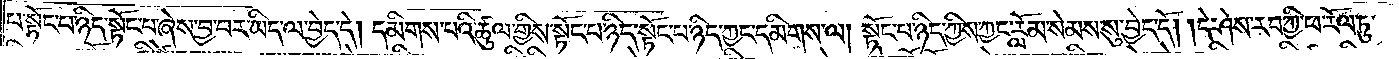པ་སྟོང་པ་ཉིད་སྟོང་པ་ཞེས་བྱ་བར་ཡིད་ལ་བྱེད་དེ། དམིགས་པའི་ཚུལ་གྱིས་སྟོང་པ་ཉིད་སྟོང་པ་ཉིད་ཀྱང་དམིགས་ལ། སྟོང་པ་ཉིད་ཀྱིས་ཀྱང་རློམ་སེམས་སུ་བྱེད་དོ། །དེ་ཤེས་རབ་ཀྱི་ཕ་རོལ་ཏུ་
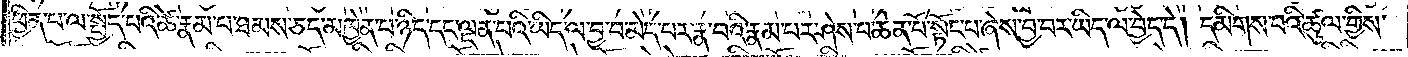ཕྱིན་པ་ལ་སྤྱོད་པའི་ཚེ་རྣམ་པ་ཐམས་ཅད་མཁྱེན་པ་ཉིད་དང་ལྡན་པའི་ཡིད་ལ་བྱ་བ་མེད་པར་རྣ་བའི་རྣམ་པར་ཤེས་པ་ཆེན་པོ་སྟོང་པ་ཞེས་བྱ་བར་ཡིད་ལ་བྱེད་དེ། དམིགས་པའི་ཚུལ་གྱིས་
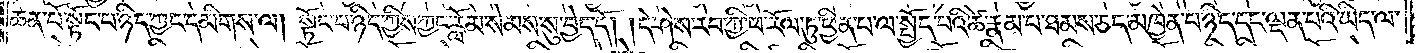ཆེན་པོ་སྟོང་པ་ཉིད་ཀྱང་དམིགས་ལ། སྟོང་པ་ཉིད་ཀྱིས་ཀྱང་རློམ་སེམས་སུ་བྱེད་དོ། །དེ་ཤེས་རབ་ཀྱི་ཕ་རོལ་ཏུ་ཕྱིན་པ་ལ་སྤྱོད་པའི་ཚེ་རྣམ་པ་ཐམས་ཅད་མཁྱེན་པ་ཉིད་དང་ལྡན་པའི་ཡིད་ལ་
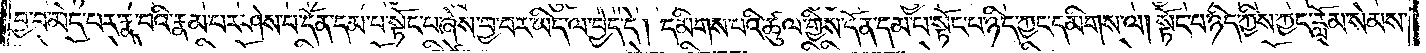བྱ་བ་མེད་པར་རྣ་བའི་རྣམ་པར་ཤེས་པ་དོན་དམ་པ་སྟོང་པ་ཞེས་བྱ་བར་ཡིད་ལ་བྱེད་དེ། དམིགས་པའི་ཚུལ་གྱིས་དོན་དམ་པ་སྟོང་པ་ཉིད་ཀྱང་དམིགས་ལ། སྟོང་པ་ཉིད་ཀྱིས་ཀྱང་རློམ་སེམས་
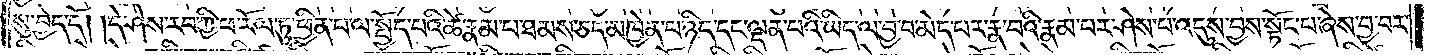སུ་བྱེད་དོ། །དེ་ཤེས་རབ་ཀྱི་ཕ་རོལ་ཏུ་ཕྱིན་པ་ལ་སྤྱོད་པའི་ཚེ་རྣམ་པ་ཐམས་ཅད་མཁྱེན་པ་ཉིད་དང་ལྡན་པའི་ཡིད་ལ་བྱ་བ་མེད་པར་རྣ་བའི་རྣམ་པར་ཤེས་པ་འདུས་བྱས་སྟོང་པ་ཞེས་བྱ་བར་
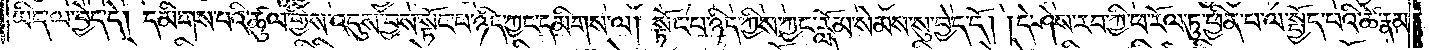ཡིད་ལ་བྱེད་དེ། དམིགས་པའི་ཚུལ་གྱིས་འདུས་བྱས་སྟོང་པ་ཉིད་ཀྱང་དམིགས་ལ། སྟོང་པ་ཉིད་ཀྱིས་ཀྱང་རློམ་སེམས་སུ་བྱེད་དོ། །དེ་ཤེས་རབ་ཀྱི་ཕ་རོལ་ཏུ་ཕྱིན་པ་ལ་སྤྱོད་པའི་ཚེ་རྣམ་
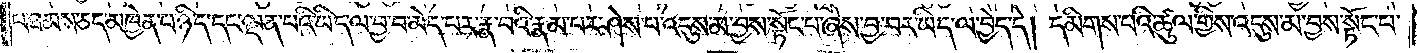པ་ཐམས་ཅད་མཁྱེན་པ་ཉིད་དང་ལྡན་པའི་ཡིད་ལ་བྱ་བ་མེད་པར་རྣ་བའི་རྣམ་པར་ཤེས་པ་འདུས་མ་བྱས་སྟོང་པ་ཞེས་བྱ་བར་ཡིད་ལ་བྱེད་དེ། དམིགས་པའི་ཚུལ་གྱིས་འདུས་མ་བྱས་སྟོང་པ་
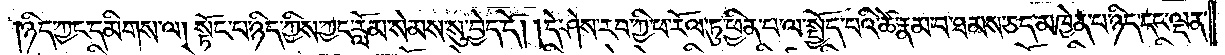ཉིད་ཀྱང་དམིགས་ལ། སྟོང་པ་ཉིད་ཀྱིས་ཀྱང་རློམ་སེམས་སུ་བྱེད་དོ། །དེ་ཤེས་རབ་ཀྱི་ཕ་རོལ་ཏུ་ཕྱིན་པ་ལ་སྤྱོད་པའི་ཚེ་རྣམ་པ་ཐམས་ཅད་མཁྱེན་པ་ཉིད་དང་ལྡན་
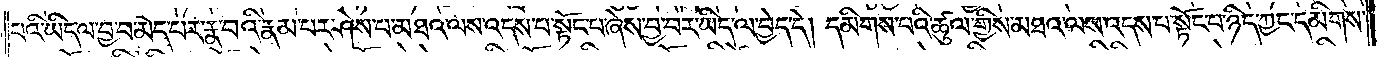པའི་ཡིད་ལ་བྱ་བ་མེད་པར་རྣ་བའི་རྣམ་པར་ཤེས་པ་མཐའ་ལས་འདས་པ་སྟོང་པ་ཞེས་བྱ་བར་ཡིད་ལ་བྱེད་དེ། དམིགས་པའི་ཚུལ་གྱིས་མཐའ་ལས་འདས་པ་སྟོང་པ་ཉིད་ཀྱང་དམིགས་
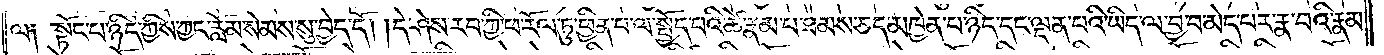ལ༑ སྟོང་པ་ཉིད་ཀྱིས་ཀྱང་རློམ་སེམས་སུ་བྱེད་དོ། །དེ་ཤེས་རབ་ཀྱི་ཕ་རོལ་ཏུ་ཕྱིན་པ་ལ་སྤྱོད་པའི་ཚེ་རྣམ་པ་ཐམས་ཅད་མཁྱེན་པ་ཉིད་དང་ལྡན་པའི་ཡིད་ལ་བྱ་བ་མེད་པར་རྣ་བའི་རྣམ་
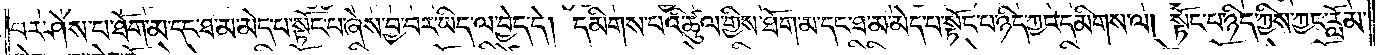པར་ཤེས་པ་ཐོག་མ་དང་ཐ་མ་མེད་པ་སྟོང་པ་ཞེས་བྱ་བར་ཡིད་ལ་བྱེད་དེ། དམིགས་པའི་ཚུལ་གྱིས་ཐོག་མ་དང་ཐ་མ་མེད་པ་སྟོང་པ་ཉིད་ཀྱང་དམིགས་ལ། སྟོང་པ་ཉིད་ཀྱིས་ཀྱང་རློམ་
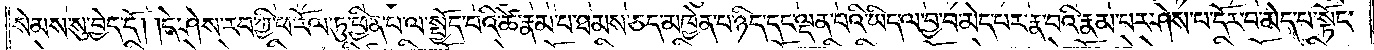སེམས་སུ་བྱེད་དོ། །དེ་ཤེས་རབ་ཀྱི་ཕ་རོལ་ཏུ་ཕྱིན་པ་ལ་སྤྱོད་པའི་ཚེ་རྣམ་པ་ཐམས་ཅད་མཁྱེན་པ་ཉིད་དང་ལྡན་པའི་ཡིད་ལ་བྱ་བ་མེད་པར་རྣ་བའི་རྣམ་པར་ཤེས་པ་དོར་བ་མེད་པ་སྟོང་
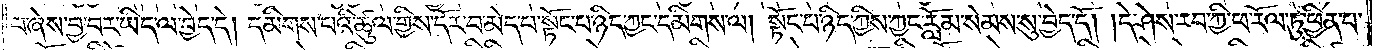པ་ཞེས་བྱ་བར་ཡིད་ལ་བྱེད་དེ། དམིགས་པའི་ཚུལ་གྱིས་དོར་བ་མེད་པ་སྟོང་པ་ཉིད་ཀྱང་དམིགས་ལ། སྟོང་པ་ཉིད་ཀྱིས་ཀྱང་རློམ་སེམས་སུ་བྱེད་དོ། །དེ་ཤེས་རབ་ཀྱི་ཕ་རོལ་ཏུ་ཕྱིན་པ་
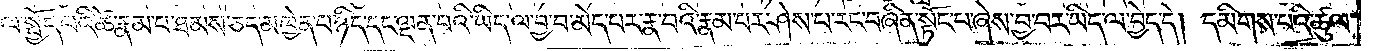ལ་སྤྱོད་པའི་ཚེ་རྣམ་པ་ཐམས་ཅད་མཁྱེན་པ་ཉིད་དང་ལྡན་པའི་ཡིད་ལ་བྱ་བ་མེད་པར་རྣ་བའི་རྣམ་པར་ཤེས་པ་རང་བཞིན་སྟོང་པ་ཞེས་བྱ་བར་ཡིད་ལ་བྱེད་དེ། དམིགས་པའི་ཚུལ་
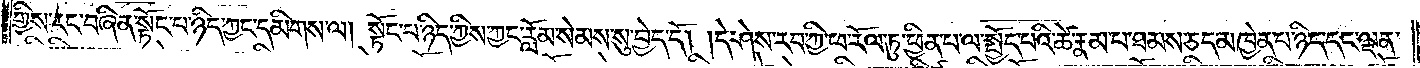གྱིས་རང་བཞིན་སྟོང་པ་ཉིད་ཀྱང་དམིགས་ལ། སྟོང་པ་ཉིད་ཀྱིས་ཀྱང་རློམ་སེམས་སུ་བྱེད་དོ། །དེ་ཤེས་རབ་ཀྱི་ཕ་རོལ་ཏུ་ཕྱིན་པ་ལ་སྤྱོད་པའི་ཚེ་རྣམ་པ་ཐམས་ཅད་མཁྱེན་པ་ཉིད་དང་ལྡན་
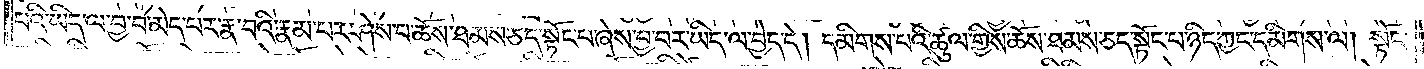པའི་ཡིད་ལ་བྱ་བ་མེད་པར་རྣ་བའི་རྣམ་པར་ཤེས་པ་ཆོས་ཐམས་ཅད་སྟོང་པ་ཞེས་བྱ་བར་ཡིད་ལ་བྱེད་དེ། དམིགས་པའི་ཚུལ་གྱིས་ཆོས་ཐམས་ཅད་སྟོང་པ་ཉིད་ཀྱང་དམིགས་ལ། སྟོང་
